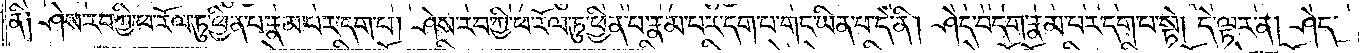ནི། ཤེས་རབ་ཀྱི་ཕ་རོལ་ཏུ་ཕྱིན་པ་རྣམ་པར་དག་པ། ཤེས་རབ་ཀྱི་ཕ་རོལ་ཏུ་ཕྱིན་པ་རྣམ་པར་དག་པ་གང་ཡིན་པ་དེ་ནི། ཤེད་བདག་རྣམ་པར་དག་པ་སྟེ། དེ་ལྟར་ན། ཤེད་
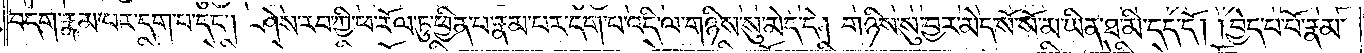བདག་རྣམ་པར་དག་པ་དང༌། ཤེས་རབ་ཀྱི་ཕ་རོལ་ཏུ་ཕྱིན་པ་རྣམ་པར་དག་པ་འདི་ལ་གཉིས་སུ་མེད་དེ། གཉིས་སུ་བྱར་མེད་སོ་སོ་མ་ཡིན་ཐ་མི་དད་དོ། །བྱེད་པ་པོ་རྣམ་
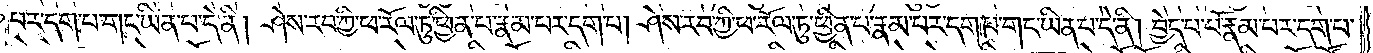པར་དག་པ་གང་ཡིན་པ་དེ་ནི། ཤེས་རབ་ཀྱི་ཕ་རོལ་ཏུ་ཕྱིན་པ་རྣམ་པར་དག་པ། ཤེས་རབ་ཀྱི་ཕ་རོལ་ཏུ་ཕྱིན་པ་རྣམ་པར་དག་པ་གང་ཡིན་པ་དེ་ནི། བྱེད་པ་པོ་རྣམ་པར་དག་པ་
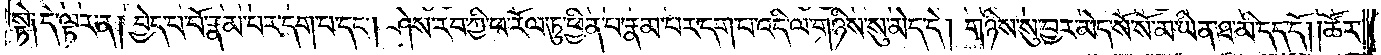སྟེ། དེ་ལྟར་ན། བྱེད་པ་པོ་རྣམ་པར་དག་པ་དང༌། ཤེས་རབ་ཀྱི་ཕ་རོལ་ཏུ་ཕྱིན་པ་རྣམ་པར་དག་པ་འདི་ལ་གཉིས་སུ་མེད་དེ། གཉིས་སུ་བྱར་མེད་སོ་སོ་མ་ཡིན་ཐ་མི་དད་དོ། །ཚོར་
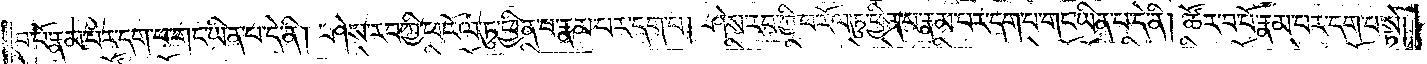བ་པོ་རྣམ་པར་དག་པ་གང་ཡིན་པ་དེ་ནི། ཤེས་རབ་ཀྱི་ཕ་རོལ་ཏུ་ཕྱིན་པ་རྣམ་པར་དག་པ། ཤེས་རབ་ཀྱི་ཕ་རོལ་ཏུ་ཕྱིན་པ་རྣམ་པར་དག་པ་གང་ཡིན་པ་དེ་ནི། ཚོར་བ་པོ་རྣམ་པར་དག་པ་སྟེ།
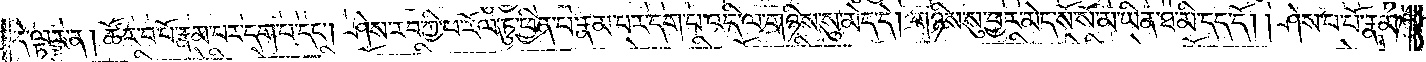དེ་ལྟར་ན། ཚོར་བ་པོ་རྣམ་པར་དག་པ་དང༌། ཤེས་རབ་ཀྱི་ཕ་རོལ་ཏུ་ཕྱིན་པ་རྣམ་པར་དག་པ་འདི་ལ་གཉིས་སུ་མེད་དེ། གཉིས་སུ་བྱར་མེད་སོ་སོ་མ་ཡིན་ཐ་མི་དད་དོ། །ཤེས་པ་པོ་རྣམ་
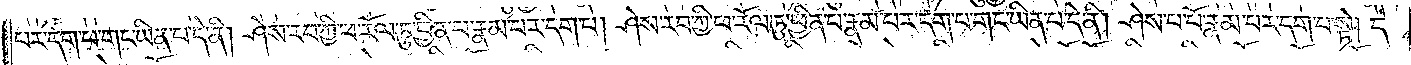པར་དག་པ་གང་ཡིན་པ་དེ་ནི། ཤེས་རབ་ཀྱི་ཕ་རོལ་ཏུ་ཕྱིན་པ་རྣམ་པར་དག་པ། ཤེས་རབ་ཀྱི་ཕ་རོལ་ཏུ་ཕྱིན་པ་རྣམ་པར་དག་པ་གང་ཡིན་པ་དེ་ནི། ཤེས་པ་པོ་རྣམ་པར་དག་པ་སྟེ། དེ་
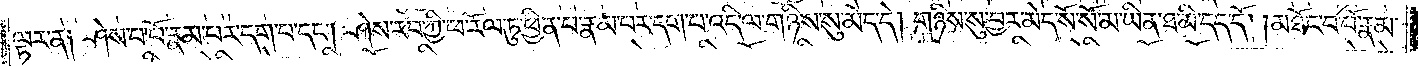ལྟར་ན། ཤེས་པ་པོ་རྣམ་པར་དག་པ་དང༌། ཤེས་རབ་ཀྱི་ཕ་རོལ་ཏུ་ཕྱིན་པ་རྣམ་པར་དག་པ་འདི་ལ་གཉིས་སུ་མེད་དེ། གཉིས་སུ་བྱར་མེད་སོ་སོ་མ་ཡིན་ཐ་མི་དད་དོ། །མཐོང་བ་པོ་རྣམ་
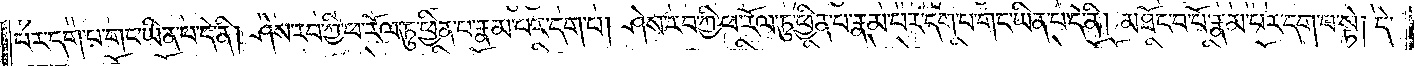པར་དག་པ་གང་ཡིན་པ་དེ་ནི། ཤེས་རབ་ཀྱི་ཕ་རོལ་ཏུ་ཕྱིན་པ་རྣམ་པར་དག་པ། ཤེས་རབ་ཀྱི་ཕ་རོལ་ཏུ་ཕྱིན་པ་རྣམ་པར་དག་པ་གང་ཡིན་པ་དེ་ནི། མཐོང་བ་པོ་རྣམ་པར་དག་པ་སྟེ། དེ་
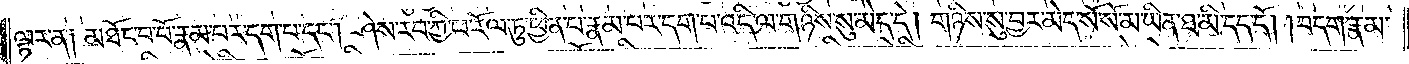ལྟར་ན། མཐོང་བ་པོ་རྣམ་པར་དག་པ་དང༌། ཤེས་རབ་ཀྱི་ཕ་རོལ་ཏུ་ཕྱིན་པ་རྣམ་པར་དག་པ་འདི་ལ་གཉིས་སུ་མེད་དེ། གཉིས་སུ་བྱར་མེད་སོ་སོ་མ་ཡིན་ཐ་མི་དད་དོ། །བདག་རྣམ་
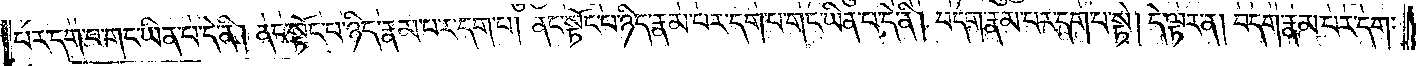པར་དག་པ་གང་ཡིན་པ་དེ་ནི། ནང་སྟོང་པ་ཉིད་རྣམ་པར་དག་པ། ནང་སྟོང་པ་ཉིད་རྣམ་པར་དག་པ་གང་ཡིན་པ་དེ་ནི། བདག་རྣམ་པར་དག་པ་སྟེ། དེ་ལྟར་ན། བདག་རྣམ་པར་དག་
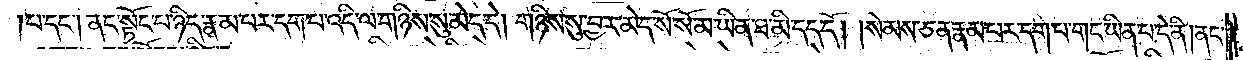པ་དང༌། ནང་སྟོང་པ་ཉིད་རྣམ་པར་དག་པ་འདི་ལ་གཉིས་སུ་མེད་དེ། གཉིས་སུ་བྱར་མེད་སོ་སོ་མ་ཡིན་ཐ་མི་དད་དོ། །སེམས་ཅན་རྣམ་པར་དག་པ་གང་ཡིན་པ་དེ་ནི། ནང་
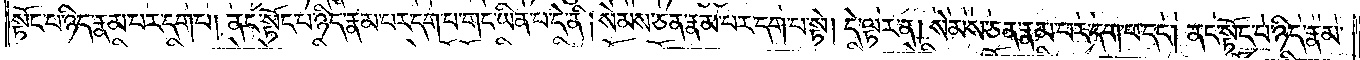སྟོང་པ་ཉིད་རྣམ་པར་དག་པ། ནང་སྟོང་པ་ཉིད་རྣམ་པར་དག་པ་གང་ཡིན་པ་དེ་ནི། སེམས་ཅན་རྣམ་པར་དག་པ་སྟེ། དེ་ལྟར་ན། སེམས་ཅན་རྣམ་པར་དག་པ་དང༌། ནང་སྟོང་པ་ཉིད་རྣམ་
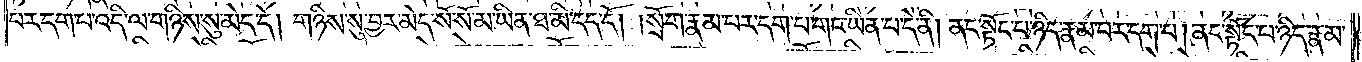པར་དག་པ་འདི་ལ་གཉིས་སུ་མེད་དེ། གཉིས་སུ་བྱར་མེད་སོ་སོ་མ་ཡིན་ཐ་མི་དད་དོ། །སྲོག་རྣམ་པར་དག་པ་གང་ཡིན་པ་དེ་ནི། ནང་སྟོང་པ་ཉིད་རྣམ་པར་དག་པ། ནང་སྟོང་པ་ཉིད་རྣམ་
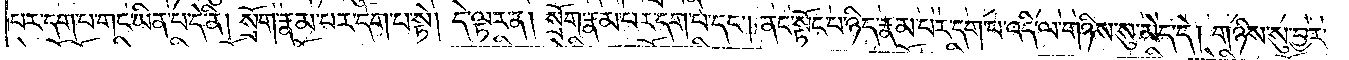པར་དག་པ་གང་ཡིན་པ་དེ་ནི། སྲོག་རྣམ་པར་དག་པ་སྟེ། དེ་ལྟར་ན། སྲོག་རྣམ་པར་དག་པ་དང༌། ནང་སྟོང་པ་ཉིད་རྣམ་པར་དག་པ་འདི་ལ་གཉིས་སུ་མེད་དེ། གཉིས་སུ་བྱར་
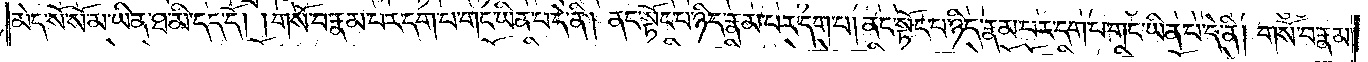མེད་སོ་སོ་མ་ཡིན་ཐ་མི་དད་དོ། །གསོ་བ་རྣམ་པར་དག་པ་གང་ཡིན་པ་དེ་ནི། ནང་སྟོང་པ་ཉིད་རྣམ་པར་དག་པ། ནང་སྟོང་པ་ཉིད་རྣམ་པར་དག་པ་གང་ཡིན་པ་དེ་ནི། གསོ་བ་རྣམ་
